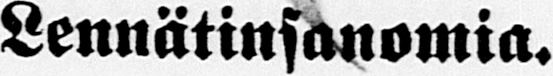Lennätinsanomia.
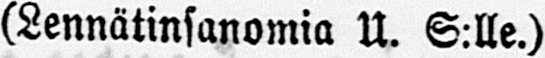(Lennätinsanomia U. S:lle.)
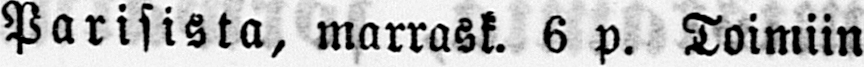Parisista, marrask. 6 p. Toimiin
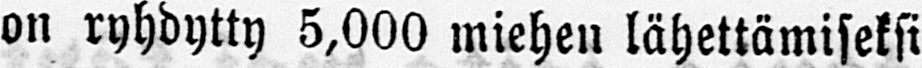on ryhdytty 5,000 miehen lähettämiseksi
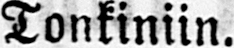Tonkiniin.
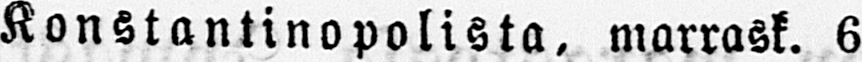Konstantinopolista, marrask. 6
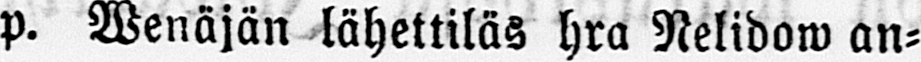p. Venäjän lähettiläs hra Nelidow an-
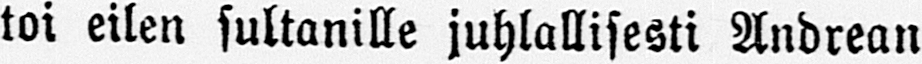toi eilen sultanille juhlallisesti Andrean
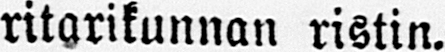ritarikunnan ristin.
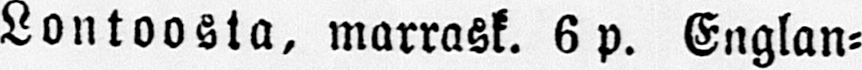Lontoosta, marrask. 6 p. Englan-
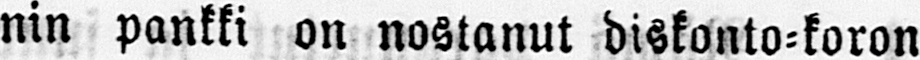nin pankki on nostanut diskonto-koron
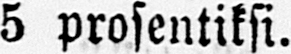5 prosentiksi.
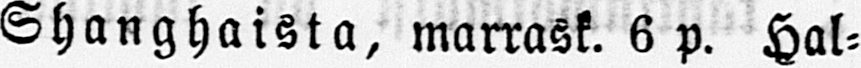Shanghaista, marrask. 6 p. Hal-
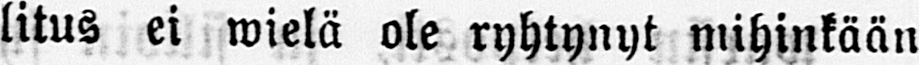litus ei wielä ole ryhtynyt mihinkään
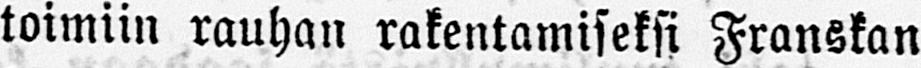toimiin rauhan rakentamiseksi Franskan
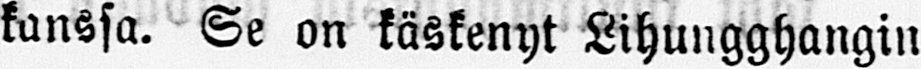kanssa. Se on käskenyt Lihungghangin
